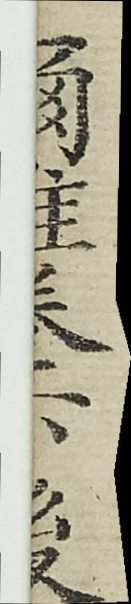爾雅卷六後
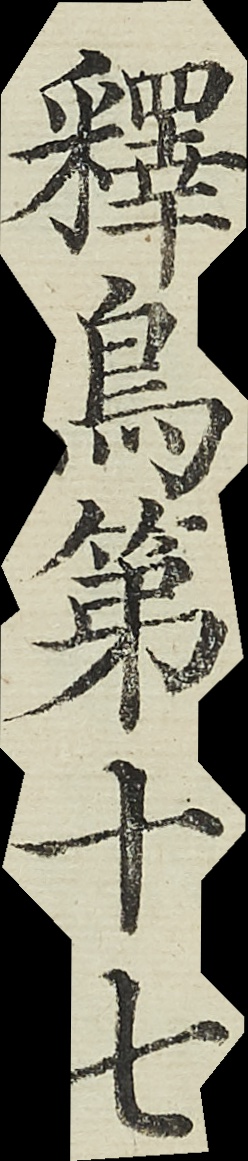釋鳥第十七
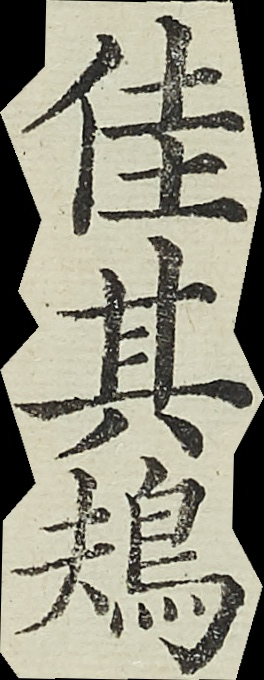隹其鳺
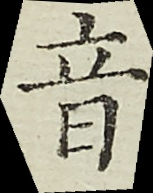音
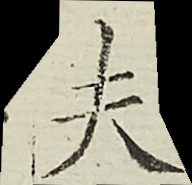夫
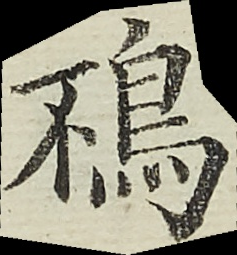鴀
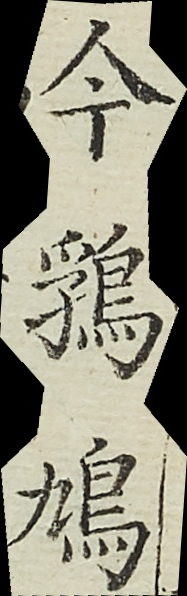今䳕鳩
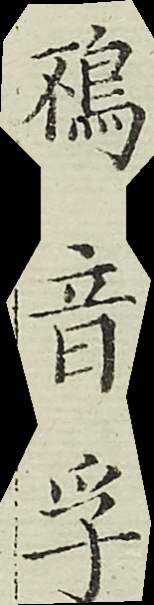䳕音孚
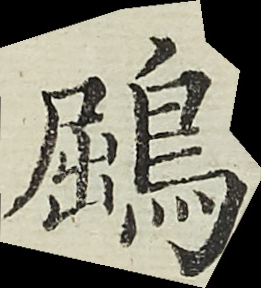鶌
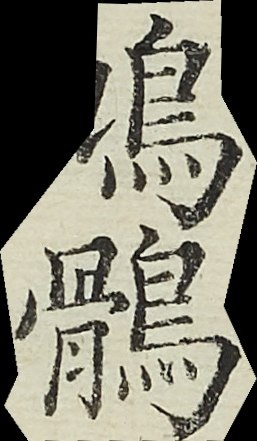鳩鶻
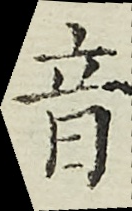音
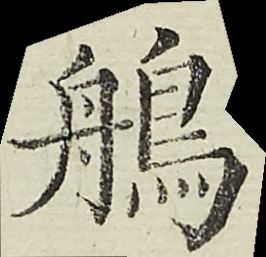鵃
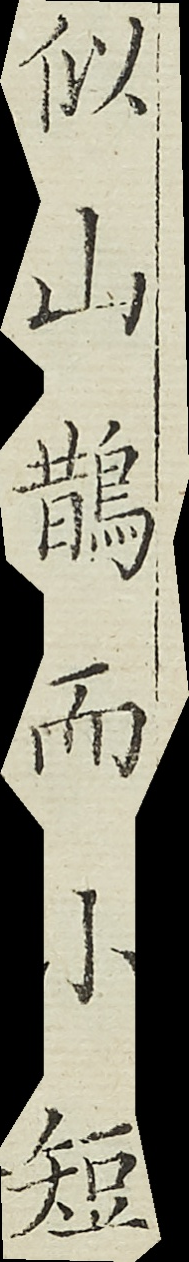似山鵲而小短
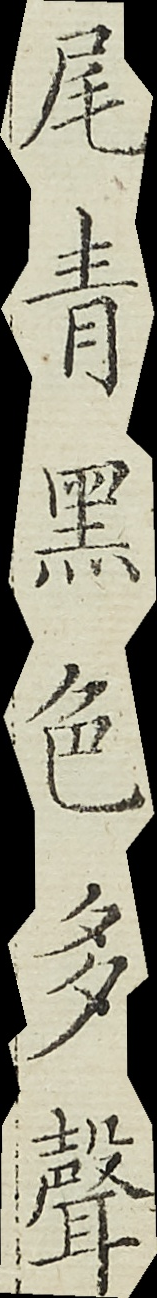尾青黑色多聲
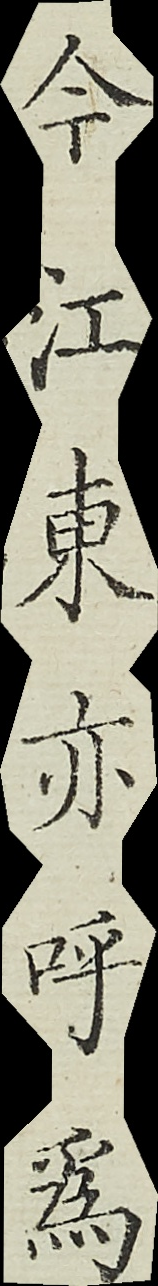今江東亦呼為
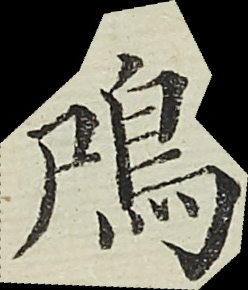鳲
